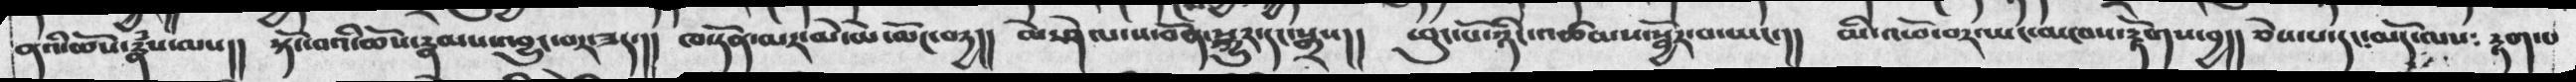ནའི་ཆོས་རྣཾས་ལས།།  སྟོང་བའི་ཆོས་རྣམས་འབྱུང་བར་ཟད་།།  ཁ་ཏོན་མར་མེ་མེ་ལོང་བདྱ།།  མེ་ཤེལ་ས་བོན་སྐྱུར་དང་སྒྲས།།  ཕུང་པོ་ཉིང་འཚམས་སྦྱོར་བ་ཡང་།།  མི་འཕོ་་བར་ཡང་མཁས་རྟོགས་བྱ།།   ཅེས་པ་དང་མདོ་ལས༴  རྟག་པ
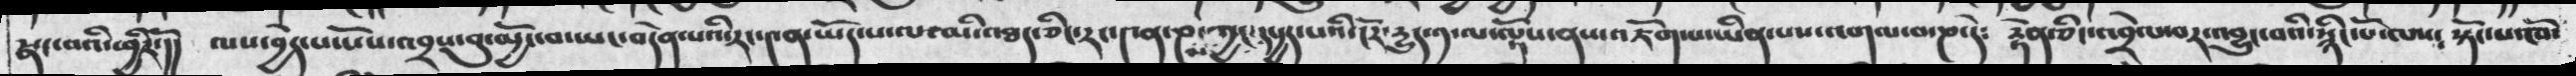སྣང་བའི་ཕྱིརོ་།།  ལས་བྱེད་པ་པས་འབྲས་བུ་མྱོང་བ་ཡང་བདེན་པའིརང་༤ན་ཡོད་པ་ལ་མི་འཐད་ཅིང་རང་༤ན་ཎ་ཀྱང་དཔྱད་པའི་ངོར་དྱུད་༡་ལ་ལྟོས་ནས་འཇོག་པ་ཡིན་པས་འགལ་བ་ཎ་དེ༴  རྟེན་ཅིང་འབྲེལ་བར་འབྱུང་པའི་སྙིང་པོ་ལས༴  སྟོང་པ་ཁོ་
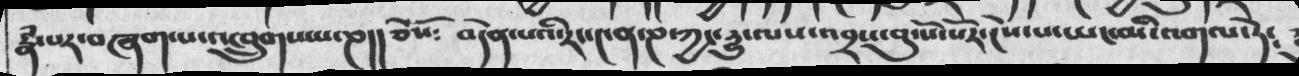རྣཾ་པར་བཞག་པ་འཁྲུགས་པ་ཎ།།  ཅེསོ༴  བདེན་པའི་རང་༤ན་ཎ་ཀྱང་རྱུ་ལས་འབྲས་བུ་སོ་སོར་ངེས་པ་ཡང་མི་འགལ་ཏེ༴
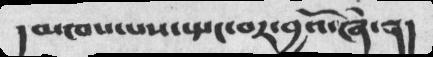།མཁས་པས་སྤང་བར་ནྱའོ་ཞེ་ན།
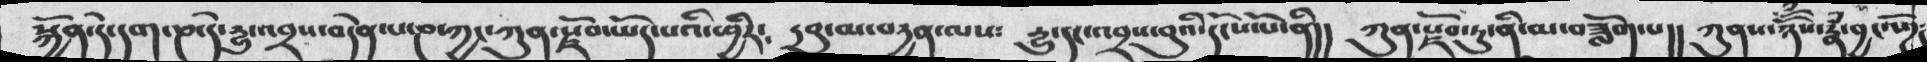སྐྱོན་དེ་དག་ཎ་དེ་རྱུ་འབྲས་བདེན་པ་ཎ་ཀྱང་ཀུན་རྫོབ་ཡོད་པའི་ཕྱིར༴  དབུ་མ་བདྱུན་ལས༴  རྱུ་དང་འབྲས་བུའི་དངོས་པོ་ནི།།  ཀུན་རྫོབ་ཏུ་ནི་མ་ཟློག་པ།།  ཀུནས་ཉོོཾས་རྣཾ་བྱང་སོཌ
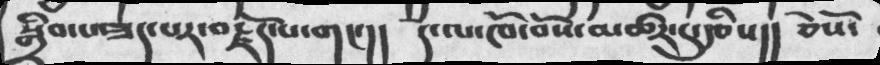སྒྲིབ་པ་ཟད་པར་བརྗོད་པ་གང་།།  དེ་ལ་ཁོ་བོས་མཚར་དུ་རྩིས།།  ཅེསོ་
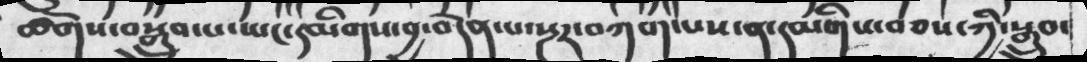ཚོགས་བསྒྲུབ་པ་ཡང་དམིགས་བྱ་བདེན་པ་སྔར་བཀག་པས་ན་དམིགས་བཅས་ཀྱི་སྒྲུབ་
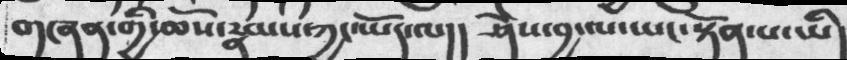གཞན་གྱི་ཆོས་རྣམས་ཀྱང་ཡོད་ལ།།   ཤེས་བྱ་ལ་ཡང་སྟོན་པ་ཡི།
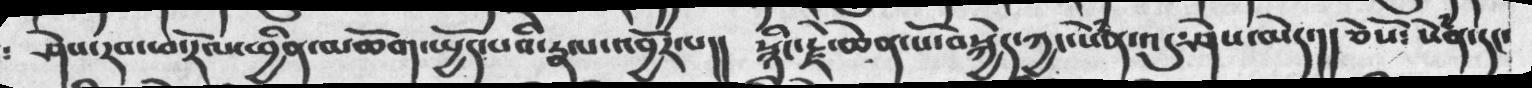ཤེས་རབ་ཕ་རོལ་ཕྱིན་མཆོག་ཡྱོད་པའི་རྣལ་འབྱོར་པ།།    སྙིང་རྗེ་ཆེན་པོ་བསྐྱེད་ཀྱང་སེྃན་འདུ་ཤེས་མེད་།།  ཅེསོ༴ སེྃན་དང་
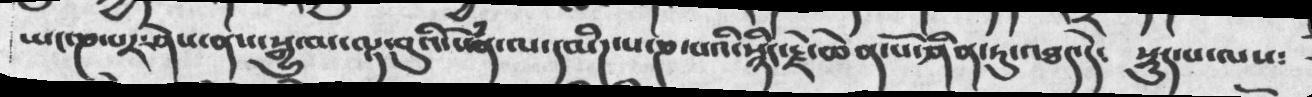ཡང་ཎ་པར་ཤེས་ནས་སྒྱུ་མ་ལྟ་བུའི་སེྃན་ལ་དམིཌ་པ་ཎ་པའི་སྙིང་རྗེ་ཆེན་པོ་ཤིན་ཏུ་འཐད་དེ༴   སྡུད་པ་ལས༴
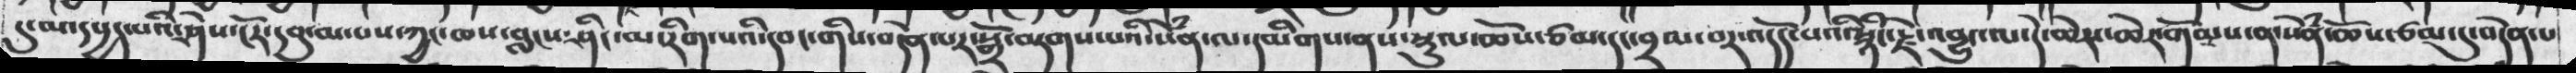དུ་མ་དཔྱད་པའི་ཤེས་ངོར་དབུ་མ་པས་ཀྱང་ཁས་བླངས་ཤིང་མ་རག་པའི་དབང་གིས་བདེན་པར་སྒྲོ་བཏགས་པའི་སེྃན་ལ་དམིགས་ནས་སྡུལ་ཆོས་ཙམ་དང་བྲལ་བར་འདོད་པའི་སྙིང་རྗེ་འབྱུང་ལ་དེ་ཆེས་ཆེར་གོམས་ན་སེྃན་ཆོས་ཙམ་དུ་བདེན་པ
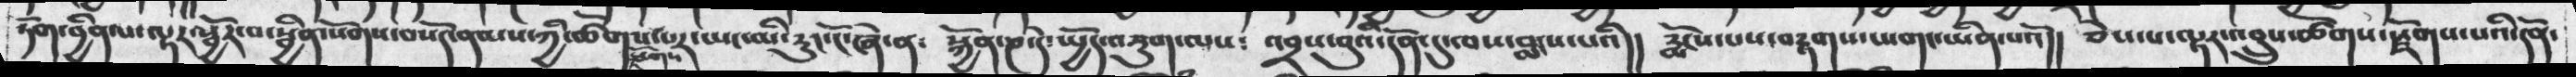ཏོག་བྱིན་པ་ལྟར་སྦྱོར་བ་སྦྱིན་སོགས་བསོད་ནམས་ཀྱི་ཚོགས་རྫོགས་པར་ཡང་མི་རུང་ངོ་ཞེ་ན༴  སྐྱོན་ཎ་དེ་སྤྱོད་འཇུག་ལས༴  འབྲས་བུའི་དོན་དུ་ཁས་བླངས་པའི།།  རྨོངས་པས་བརྟགས་པ་གང་ཡིན་པའོ།།  ཅེས་པ་ལྟར་འབྲུས་ཚོགས་རྫོགས་པའི་དོན་
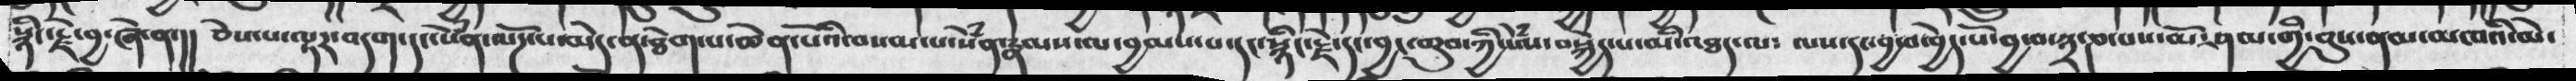སྙིང་རྗེ་བྱ་ཞེ་ན་།།  ཅེས་པ་ལྟར་བདག་དང་སེཾན་ལོཌ་པ་མེད་ན་ཐེག་པ་ཆེན་པོའི་བསམ་པ་སེཾན་རྣམས་ལ་བྱམས་པ་དང་སྙིང་རྗེ་དང་བྱང་ཆུབ་ཀྱི་སེཾས་བསྐྱེད་པ་མི་འཐད་ལ༴   ལས་དང་བྱ་བ་བྱེད་པོ་བྱ་བ་༣་ཎ་པས་མོ་ཤམ་གྱི་བུས་ནམ་མཁའི་མེ་
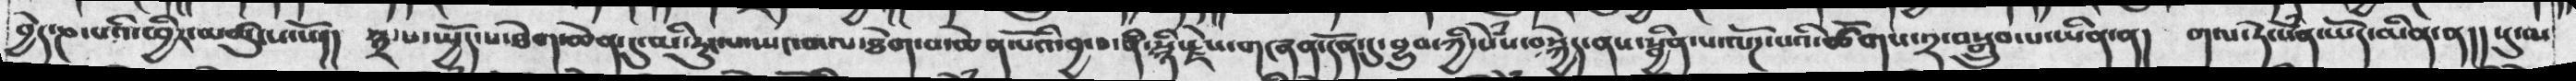བྱེད་ཎ་པའི་ཕྱིར་མཚུངས་སོ།།  ༣་པ་སྤྱོད་པ་ཐེག་ཆེན་དུ་མི་རུང་པ་སྤང་བ་ལ་ཐེག་པ་ཆེན་པོའི་བྱ་བ་ནི་སྙིང་རྗེས་གཞན་དོན་དུ་བྱུབ་ཀྱི་སེཾས་བསྐྱེད་ནས་སྦྱིན་པ་ལོཌ་པའི་ཚོགས་༢་བསྒྲུབ་པ་ཡིན་ན།   གལ་ཏེ་སེཾན་ཡོད་མིན་ན།།  སུ་མ
